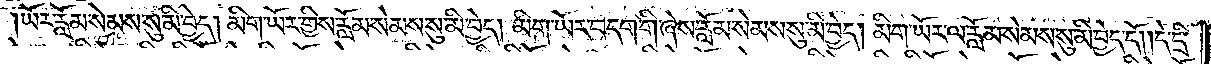ཡོར་རློམ་སེམས་སུ་མི་བྱེད། མིག་ཡོར་གྱིས་རློམ་སེམས་སུ་མི་བྱེད། མིག་ཡོར་བདག་གི་ཞེས་རློམ་སེམས་སུ་མི་བྱེད། མིག་ཡོར་ལ་རློམ་སེམས་སུ་མི་བྱེད་དོ། །དེ་དྲི་
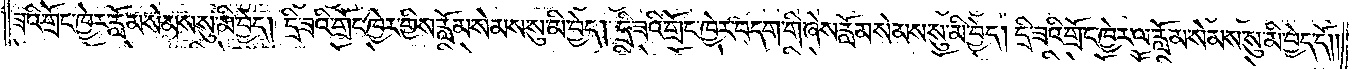ཟའི་གྲོང་ཁྱེར་རློམ་སེམས་སུ་མི་བྱེད། དྲི་ཟའི་གྲོང་ཁྱེར་གྱིས་རློམ་སེམས་སུ་མི་བྱེད། དྲི་ཟའི་གྲོང་ཁྱེར་བདག་གི་ཞེས་རློམ་སེམས་སུ་མི་བྱེད། དྲི་ཟའི་གྲོང་ཁྱེར་ལ་རློམ་སེམས་སུ་མི་བྱེད་དོ། །
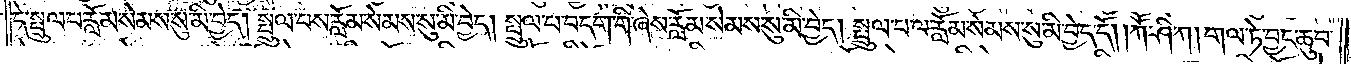དེ་སྤྲུལ་པ་རློམ་སེམས་སུ་མི་བྱེད། སྤྲུལ་པས་རློམ་སེམས་སུ་མི་བྱེད། སྤྲུལ་པ་བདག་གི་ཞེས་རློམ་སེམས་སུ་མི་བྱེད། སྤྲུལ་པ་ལ་རློམ་སེམས་སུ་མི་བྱེད་དོ། །ཀཽ་ཤི་ཀ། གལ་ཏེ་བྱང་ཆུབ་
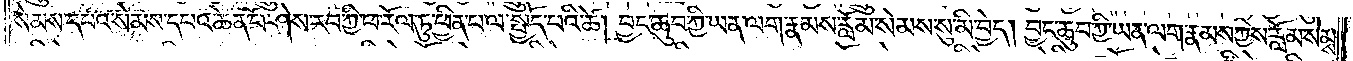སེམས་དཔའ་སེམས་དཔའ་ཆེན་པོ་ཤེས་རབ་ཀྱི་ཕ་རོལ་ཏུ་ཕྱིན་པ་ལ་སྤྱོད་པའི་ཚེ། བྱང་ཆུབ་ཀྱི་ཡན་ལག་རྣམས་རློམ་སེམས་སུ་མི་བྱེད། བྱང་ཆུབ་ཀྱི་ཡན་ལག་རྣམས་ཀྱིས་རློམ་སེམས་
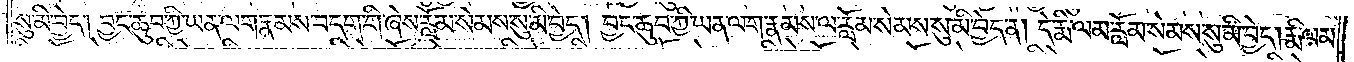སུ་མི་བྱེད། བྱང་ཆུབ་ཀྱི་ཡང་ལག་རྣམས་བདག་གི་ཞེས་རློམ་སེམས་སུ་མི་བྱེད། བྱང་ཆུབ་ཀྱི་ཡན་ལག་རྣམས་ལ་རློམ་སེམས་སུ་མི་བྱེད་ན། དེ་རྨི་ལམ་རློམ་སེམས་སུ་མི་བྱེད། རྨི་ལམ་
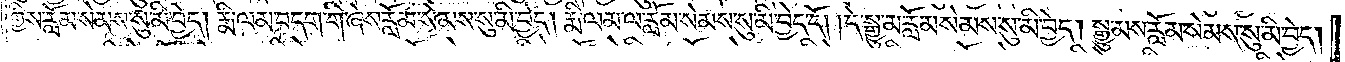གྱིས་རློམ་སེམས་སུ་མི་བྱེད། རྨི་ལམ་བདག་གི་ཞེས་རློམ་སེམས་སུ་མི་བྱེད། རྨི་ལམ་ལ་རློམ་སེམས་སུ་མི་བྱེད་དོ། །དེ་སྒྱུ་མ་རློམ་སེམས་སུ་མི་བྱེད། སྒྱུ་མས་རློམ་སེམས་སུ་མི་བྱེད།
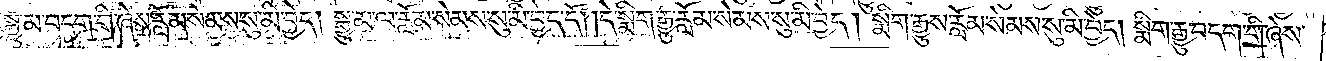སྒྱུ་མ་བདག་གི་ཞེས་རློམ་སེམས་སུ་མི་བྱེད། སྒྱུ་མ་ལ་རློམ་སེམས་སུ་མི་བྱེད་དོ། །དེ་སྨིག་རྒྱུ་རློམ་སེམས་སུ་མི་བྱེད། སྨིག་རྒྱུས་རློམ་སེམས་སུ་མི་བྱེད། སྨིག་རྒྱུ་བདག་གི་ཞེས་
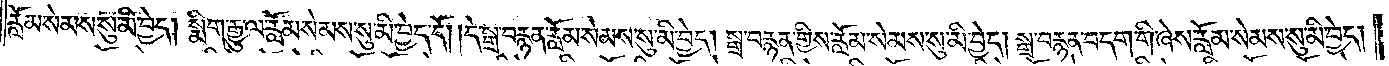རློམ་སེམས་སུ་མི་བྱེད། སྨིག་རྒྱུ་ལ་རློམ་སེམས་སུ་མི་བྱེད་དོ། །དེ་སྒྲ་བརྙན་རློམ་སེམས་སུ་མི་བྱེད། སྒྲ་བརྙན་གྱིས་རློམ་སེམས་སུ་མི་བྱེད། སྒྲ་བརྙན་བདག་གི་ཞེས་རློམ་སེམས་སུ་མི་བྱེད།
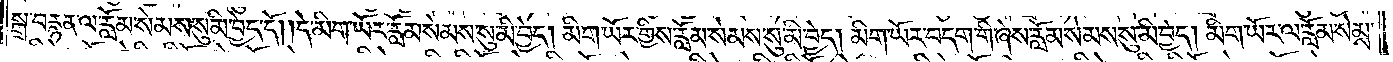སྒྲ་བརྙན་ལ་རློམ་སེམས་སུ་མི་བྱེད་དོ། །དེ་མིག་ཡོར་རློམ་སེམས་སུ་མི་བྱེད། མིག་ཡོར་གྱིས་རློམ་སེམས་སུ་མི་བྱེད། མིག་ཡོར་བདག་གི་ཞེས་རློམ་སེམས་སུ་མི་བྱེད། མིག་ཡོར་ལ་རློམ་སེམས་
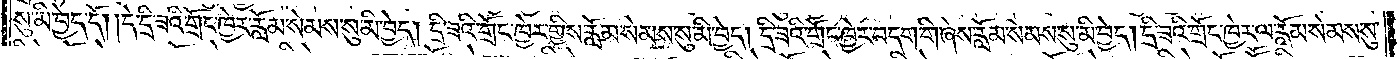སུ་མི་བྱེད་དོ། །དེ་དྲི་ཟའི་གྲོང་ཁྱེར་རློམ་སེམས་སུ་མི་བྱེད། དྲི་ཟའི་གྲོང་ཁྱེར་གྱིས་རློམ་སེམས་སུ་མི་བྱེད། དྲི་ཟའི་གྲོང་ཁྱེར་བདག་གི་ཞེས་རློམ་སེམས་སུ་མི་བྱེད། དྲི་ཟའི་གྲོང་ཁྱེར་ལ་རློམ་སེམས་སུ་
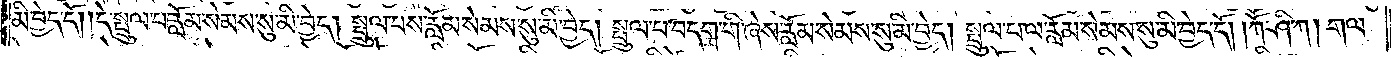མི་བྱེད་དོ། །དེ་སྤྲུལ་པ་རློམ་སེམས་སུ་མི་བྱེད། སྤྲུལ་པས་རློམ་སེམས་སུ་མི་བྱེད། སྤྲུལ་པ་བདག་གི་ཞེས་རློམ་སེམས་སུ་མི་བྱེད། སྤྲུལ་པ་ལ་རློམ་སེམས་སུ་མི་བྱེད་དོ། །ཀཽ་ཤི་ཀ། གལ་
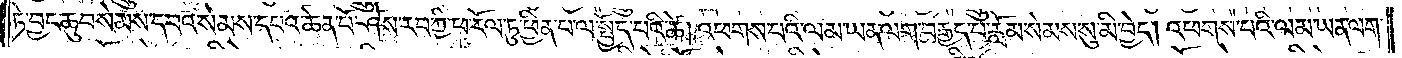ཏེ་བྱང་ཆུབ་སེམས་དཔའ་སེམས་དཔའ་ཆེན་པོ་ཤེས་རབ་ཀྱི་ཕ་རོལ་ཏུ་ཕྱིན་པ་ལ་སྤྱོད་པའི་ཚེ། འཕགས་པའི་ལམ་ཡན་ལག་བརྒྱད་པ་རློམ་སེམས་སུ་མི་བྱེད། འཕགས་པའི་ལམ་ཡན་ལག་
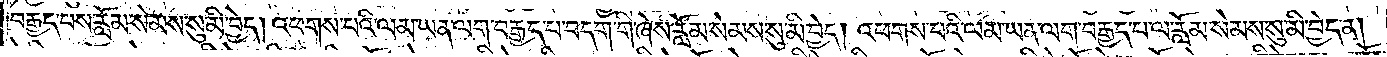བརྒྱད་པས་རློམ་སེམས་སུ་མི་བྱེད། འཕགས་པའི་ལམ་ཡན་ལག་བརྒྱད་པ་བདག་གི་ཞེས་རློམ་སེམས་སུ་མི་བྱེད། འཕགས་པའི་ལམ་ཡན་ལག་བརྒྱད་པ་ལ་རློམ་སེམས་སུ་མི་བྱེད་ན།
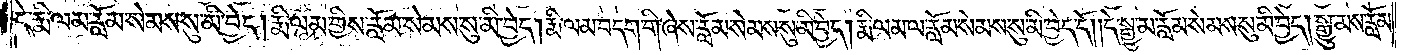དེ་རྨི་ལམ་རློམ་སེམས་སུ་མི་བྱེད། རྨི་ལམ་གྱིས་རློམ་སེམས་སུ་མི་བྱེད། རྨི་ལམ་བདག་གི་ཞེས་རློམ་སེམས་སུ་མི་བྱེད། རྨི་ལམ་ལ་རློམ་སེམས་སུ་མི་བྱེད་དོ། །དེ་སྒྱུ་མ་རློམ་སེམས་སུ་མི་བྱེད། སྒྱུ་མས་རློམ་
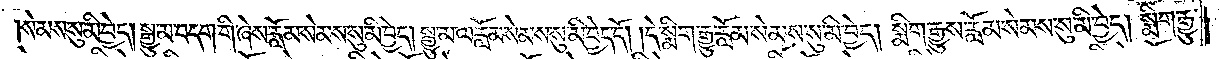སེམས་སུ་མི་བྱེད། སྒྱུ་མ་བདག་གི་ཞེས་རློམ་སེམས་སུ་མི་བྱེད། སྒྱུ་མ་ལ་རློམ་སེམས་སུ་མི་བྱེད་དོ། །དེ་སྨིག་རྒྱུ་རློམ་སེམས་སུ་མི་བྱེད། སྨིག་རྒྱུས་རློམ་སེམས་སུ་མི་བྱེད། སྨིག་རྒྱུ་
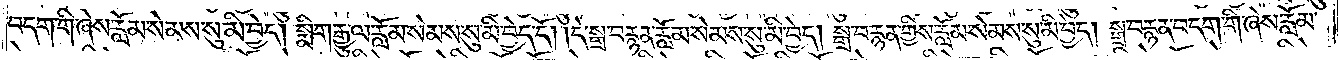བདག་གི་ཞེས་རློམ་སེམས་སུ་མི་བྱེད། སྨིག་རྒྱུ་ལ་རློམ་སེམས་སུ་མི་བྱེད་དོ། །དེ་སྒྲ་བརྙན་རློམ་སེམས་སུ་མི་བྱེད། སྒྲ་བརྙན་གྱིས་རློམ་སེམས་སུ་མི་བྱེད། སྒྲ་བརྙན་བདག་གི་ཞེས་རློམ་
